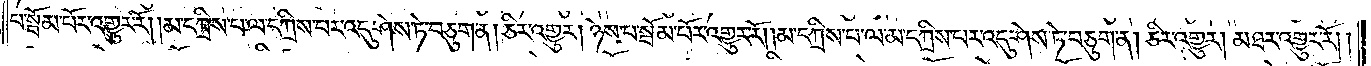པ་སྦོམ་པོར་འགྱུར་རོ། །མ་དཀྲིས་པ་ལ་དཀྲིས་པར་འདུ་ཤེས་ཏེ་བཅུག་ན། ཅིར་འགྱུར། ཉེས་པ་སྦོམ་པོར་འགྱུར་རོ། །མ་དཀྲིས་པ་ལ་མ་དཀྲིས་པར་འདུ་ཤེས་ཏེ་བཅུག་ན། ཅིར་འགྱུར། མཐར་འགྱུར་རོ། །
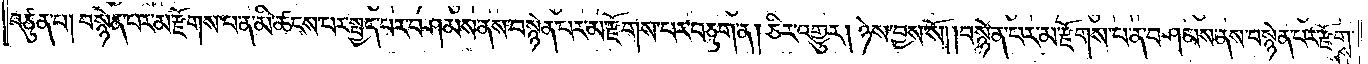བཙུན་པ། བསྙེན་པར་མ་རྫོགས་པ་ན་མི་ཚངས་པར་སྤྱད་པར་བཤམས་ནས་བསྙེན་པར་མ་རྫོགས་པར་བཅུག་ན། ཅིར་འགྱུར། ཉེས་བྱས་སོ། །བསྙེན་པར་མ་རྫོགས་པ་ན་བཤམས་ནས་བསྙེན་པར་རྫོགས་
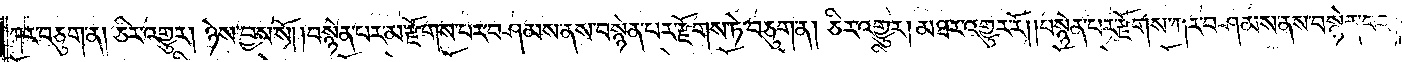ཀར་བཅུག་ན། ཅིར་འགྱུར། ཉེས་བྱས་སོ། །བསྙེན་པར་མ་རྫོགས་པར་བཤམས་ནས་བསྙེན་པར་རྫོགས་ཏེ་བཅུག་ན། ཅིར་འགྱུར། མཐར་འགྱུར་རོ། །བསྙེན་པར་རྫོགས་ཀར་བཤམས་ནས་བསྙེན་པར་
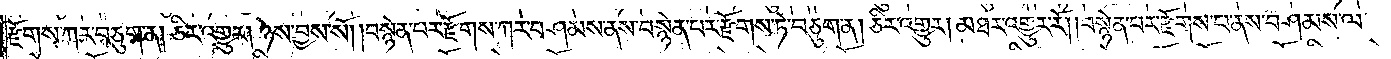རྫོགས་ཀར་བཅུག་ན། ཅིར་འགྱུར། ཉེས་བྱས་སོ། །བསྙེན་པར་རྫོགས་ཀར་བཤམས་ནས་བསྙེན་པར་རྫོགས་ཏེ་བཅུག་ན། ཅིར་འགྱུར། མཐར་འགྱུར་རོ། །བསྙེན་པར་རྫོགས་པ་ནས་བཤམས་ལ་
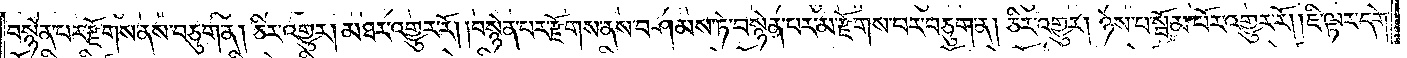བསྙེན་པར་རྫོགས་ནས་བཅུག་ན། ཅིར་འགྱུར། མཐར་འགྱུར་རོ། །བསྙེན་པར་རྫོགས་ནས་བཤམས་ཏེ་བསྙེན་པར་མ་རྫོགས་པར་བཅུག་ན། ཅིར་འགྱུར། ཉེས་པ་སྦོམ་པོར་འགྱུར་རོ། །ཇི་ལྟར་དགེ་
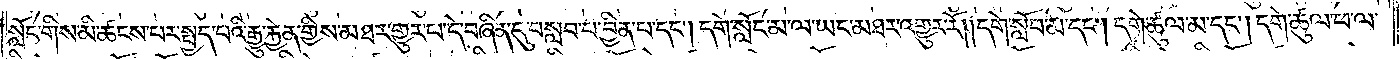སློང་གིས་མི་ཚངས་པར་སྤྱད་པའི་རྒྱུ་རྐྱེན་གྱིས་མཐར་གྱུར་པ་དེ་བཞིན་དུ་བསླབ་པ་བྱིན་པ་དང༌། དགེ་སློང་མ་ལ་ཡང་མཐར་འགྱུར་རོ། །དགེ་སློབ་མ་དང༌། དགེ་ཚུལ་མ་དང༌། དགེ་ཚུལ་ཕ་ལ་
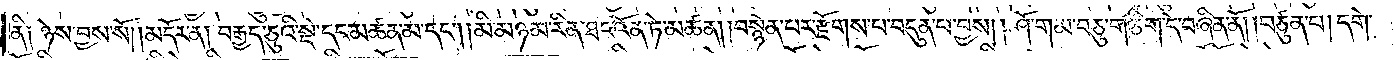ནི༑ ཉེས་བྱས་སོ།    །མདོར་ན། བརྒྱད་ཅུའི་སྡེ་དང་མཚན་མ་དང༌། །མི་མཉམ་རིན་ཐང་འོན་ཏེ་མཚན། །བསྙེན་པར་རྫོགས་པ་བདུན་པ་བྱས། ཤོ་གམ་བཅུ་གཅིག་དེ་བཞིན་ནོ། །བཙུན་པ། དགེ་
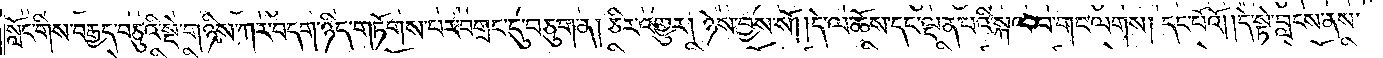སློང་གིས་བརྒྱད་བཅུའི་སྡེ་གཉིས་ཀར་བདག་ཉིད་གཏོགས་པར་བགྲང་དུ་བཅུག་ན། ཅིར་འགྱུར། ཉེས་བྱས་སོ། །དེ་ལ་ཆོས་དང་ལྡན་པའི་སྐལ་པ་གང་ལགས། དང་པོའོ། །དེ་སྟེ་བླངས་ནས་
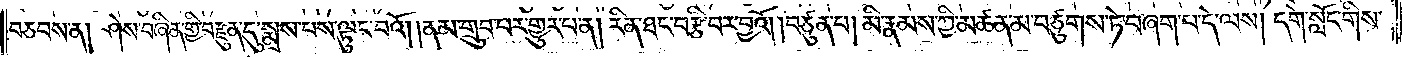བཅབས་ན། ཤེས་བཞིན་གྱི་བརྫུན་དུ་སྨྲས་པས་ལྟུང་བའོ། །ནམ་གྲུབ་པར་གྱུར་པ་ན། རིན་ཐང་བརྩི་བར་བྱའོ། །བཙུན་པ། མི་རྣམས་ཀྱི་མཚན་མ་བཙུགས་ཏེ་བཞག་པ་དེ་ལས། དགེ་སློང་གིས་
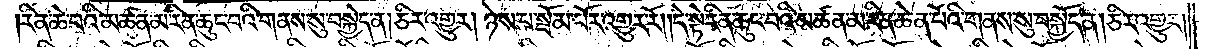།རིན་ཆེ་བའི་མཚན་མ་རིན་ཆུང་བའི་གནས་སུ་བསྐྱེད་ན། ཅིར་འགྱུར། ཉེས་པ་སྦོམ་པོར་འགྱུར་རོ། །དེ་སྟེ་རིན་ཆུང་བའི་མཚན་མ་རིན་ཆེན་པོའི་གནས་སུ་བསྐྱོད་ན། ཅིར་འགྱུར།
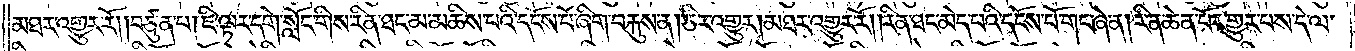མཐར་འགྱུར་རོ། །བཙུན་པ། ཇི་ལྟར་དགེ་སློང་གིས་རིན་ཐང་མ་མཆིས་པའི་དངོས་པོ་ཞིག་བརྐུས་ན། ཅིར་འགྱུར། མཐར་འགྱུར་རོ། །རིན་ཐང་མེད་པའི་དངོས་པོ་གང་ཞེ་ན། རིན་ཆེན་པོར་གྱུར་པས་དེ་ལ་
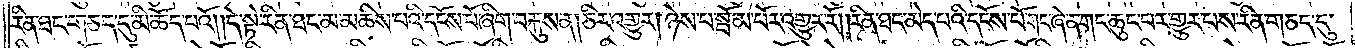རིན་ཐང་གཅད་དུ་མི་ཆོད་པའོ། །དེ་སྟེ་རིན་ཐང་མ་མཆིས་པའི་དངོས་པོ་ཞིག་བརྐུས་ན། ཅིར་འགྱུར། ཉེས་པ་སྦོམ་པོར་འགྱུར་རོ། །རིན་ཐང་མེད་པའི་དངོས་པོ་གང་ཞེ་ན་གང་ཆུང་བར་གྱུར་པས་རིན་གཅད་དུ་
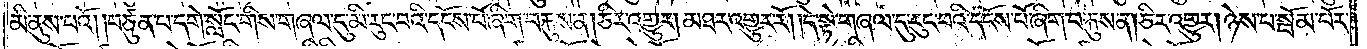མི་ནུས་པའོ། །བཙུན་པ་དགེ་སློང་གིས་གཞལ་དུ་མི་རུང་བའི་དངོས་པོ་ཞིག་བརྐུས་ན། ཅིར་འགྱུར། མཐར་འགྱུར་རོ། །དེ་སྟེ་གཞལ་དུ་རུང་བའི་དངོས་པོ་ཞིག་བརྐུས་ན། ཅིར་འགྱུར། ཉེས་པ་སྦོམ་པོར་
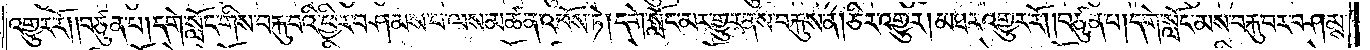འགྱུར་རོ། །བཙུན་པ། དགེ་སློང་གིས་བརྐུ་བའི་ཕྱིར་བཤམས་པ་ལས་མཚན་འཕོས་ཏེ། དགེ་སློང་མར་གྱུར་ནས་བརྐུས་ན། ཅིར་འགྱུར། མཐར་འགྱུར་རོ། །བཙུན་པ། དགེ་སློང་མས་བརྐུ་བར་བཤམས་
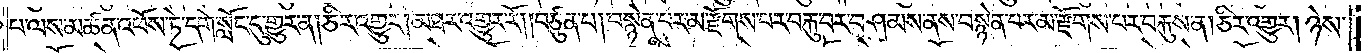པ་ལས་མཚན་འཕོས་ཏེ་དགེ་སློང་དུ་གྱུར་ན། ཅིར་འགྱུར། མཐར་འགྱུར་རོ། །བཙུན་པ། བསྙེན་པར་མ་རྫོགས་པར་བརྐུ་བར་བཤམས་ནས་བསྙེན་པར་མ་རྫོགས་པར་བརྐུས་ན། ཅིར་འགྱུར། ཉེས་
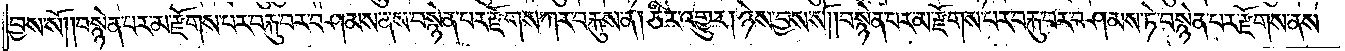བྱས་སོ། །བསྙེན་པར་མ་རྫོགས་པར་བརྐུ་བར་བཤམས་ནས་བསྙེན་པར་རྫོགས་ཀར་བརྐུས་ན། ཅིར་འགྱུར། ཉེས་བྱས་སོ། །བསྙེན་པར་མ་རྫོགས་པར་བརྐུ་བར་བཤམས་ཏེ་བསྙེན་པར་རྫོགས་ནས་
